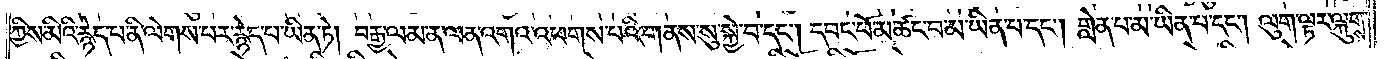ཀྱིས་མིའི་རྙེད་པ་ནི་ལེགས་པར་རྙེད་པ་ཡིན་ཏེ། བརྒྱ་ལམ་ན་ལན་འགའ་འཕགས་པའི་གནས་སུ་སྐྱེ་བ་དང༌། དབང་པོ་མ་ཚང་བ་མ་ཡིན་པ་དང༌། གླེན་པ་མ་ཡིན་པ་དང༌། ལུག་ལྟར་ལྐུགས་
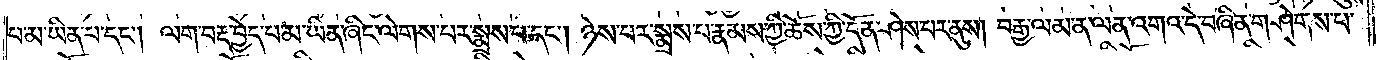པ་མ་ཡིན་པ་དང༌། ལག་བརྡ་བྱེད་པ་མ་ཡིན་ཞིང་ལེགས་པར་སྨྲས་པ་དང༌། ཉེས་པར་སྨྲས་པ་རྣམས་ཀྱི་ཆོས་ཀྱི་དོན་ཤེས་པར་ནུས། བརྒྱ་ལམ་ན་ལན་འགའ་དེ་བཞིན་གཤེགས་པ་
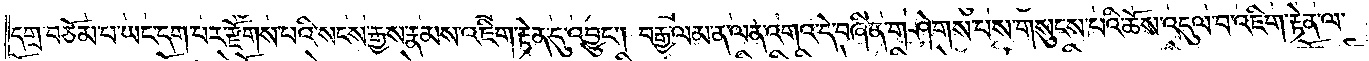དགྲ་བཅོམ་པ་ཡང་དག་པར་རྫོགས་པའི་སངས་རྒྱས་རྣམས་འཇིག་རྟེན་དུ་འབྱུང༌། བརྒྱ་ལམ་ན་ལན་འགའ་དེ་བཞིན་གཤེགས་པས་གསུངས་པའི་ཆོས་འདུལ་བ་འཇིག་རྟེན་ལ་
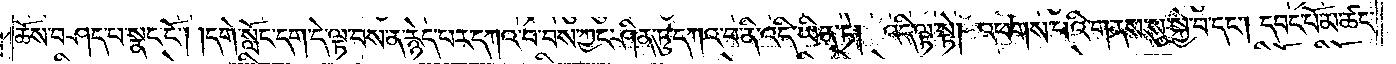ཆོས་བཤད་པ་སྣང་ངོ༌། །དགེ་སློང་དག་དེ་ལྟ་བས་ན་རྙེད་པར་དཀའ་བ་བས་ཀྱང་ཤིན་ཏུ་དཀའ་བ་ནི་འདི་ཡིན་ཏེ། འདི་ལྟ་སྟེ། འཕགས་པའི་གནས་སུ་སྐྱེ་བ་དང༌། དབང་པོ་མ་ཚང་
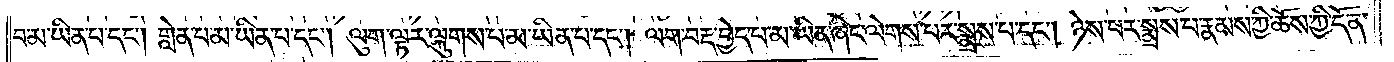བ་མ་ཡིན་པ་དང༌། གླེན་པ་མ་ཡིན་པ་དང༌། ལུག་ལྟར་ལྐུགས་པ་མ་ཡིན་པ་དང༌། ལག་བརྡ་བྱེད་པ་མ་ཡིན་ཞིང་ལེགས་པར་སྨྲས་པ་དང༌། ཉེས་པར་སྨྲས་པ་རྣམས་ཀྱི་ཆོས་ཀྱི་དོན་
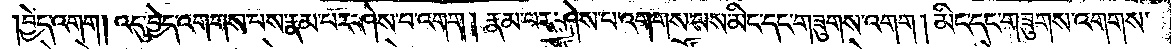བྱེད་འགག། འདུ་བྱེད་འགགས་པས་རྣམ་པར་ཤེས་པ་འགག །རྣམ་པར་ཤེས་པ་འགགས་པས་མིང་དང་གཟུགས་འགག །མིང་དང་གཟུགས་འགགས་
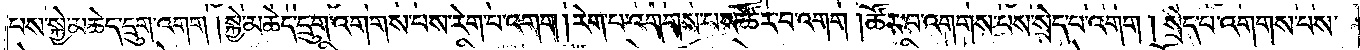པས་སྐྱེ་མཆེད་དྲུག་འགག །སྐྱེ་མཆེད་དྲུག་འགགས་པས་རེག་པ་འགག །རེག་པ་འགགས་པས་ཚོར་བ་འགག །ཚོར་བ་འགགས་པས་སྲེད་བ་འགག །སྲེད་པ་འགགས་པས་
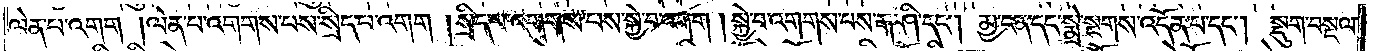ལེན་པ་འགག །ལེན་པ་འགགས་པས་སྲིད་པ་འགག །སྲིད་པ་འགགས་པས་སྐྱེ་བ་འགག །སྐྱེ་བ་འགགས་པས་རྒ་ཤི་དང༌། མྱ་ངན་དང་སྨྲེ་སྔགས་འདོན་པ་དང༌། སྡུག་བསྔལ་
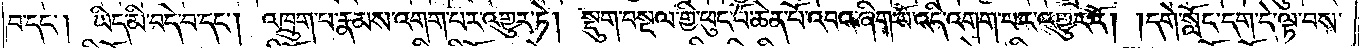བ་དང༌། ཡིད་མི་བདེ་བ་དང༌། འཁྲུག་པ་རྣམས་འགག་པར་འགྱུར་ཏེ། སྡུག་བསྔལ་གྱི་ཕུང་པོ་ཆེན་པོ་འབའ་ཞིག་པོ་འདི་འགག་པར་འགྱུར་རོ། །དགེ་སློང་དག་དེ་ལྟ་བས་
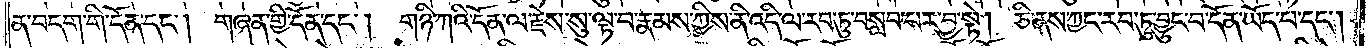ན་བདག་གི་དོན་དང༌། གཞན་གྱི་དོན་དང༌། གཉི་ཀའི་དོན་ལ་རྗེས་སུ་ལྟ་བ་རྣམས་ཀྱིས་ནི་འདི་ལ་རབ་ཏུ་བསླབ་པར་བྱ་སྟེ། ཅི་ནས་ཀྱང་རབ་ཏུ་བྱུང་བ་དོན་ཡོད་པ་དང༌།
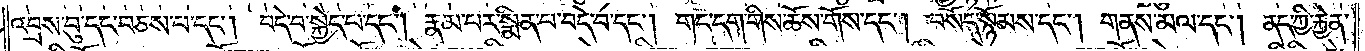འབྲས་བུ་དང་བཅས་པ་དང༌། བདེ་བ་སྐྱེད་པ་དང༌། རྣམ་པར་སྨིན་པ་བདེ་བ་དང༌། གང་དག་གིས་ཆོས་གོས་དང༌། བསོད་སྙོམས་དང༌། གནས་མལ་དང༌། ནད་ཀྱི་རྐྱེན་
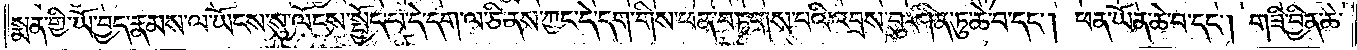སྨན་གྱི་ཡོ་བྱད་རྣམས་ལ་ཡོངས་སུ་ལོངས་སྤྱོད་པ་དེ་དག་ལ་ཅི་ནས་ཀྱང་དེ་དག་གིས་ཕན་བཏགས་པའི་འབྲས་བུ་ཤིན་ཏུ་ཆེ་བ་དང༌། ཕན་ཡོན་ཆེ་བ་དང༌། གཟི་བྱིན་ཆེ་
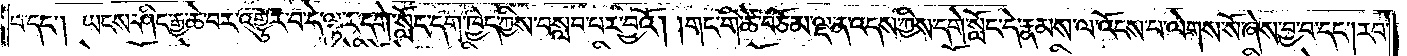བ་དང༌། ཡངས་ཤིང་རྒྱ་ཆེ་བར་འགྱུར་བ་དེ་ལྟར་དགེ་སློང་དག་ཁྱེད་ཀྱིས་བསླབ་པར་བྱའོ། །གང་གི་ཚེ་བཅོམ་ལྡན་འདས་ཀྱིས་དགེ་སློང་དེ་རྣམས་ལ་འོངས་པ་ལེགས་སོ་ཞེས་བྱ་བ་དང༌། རབ་
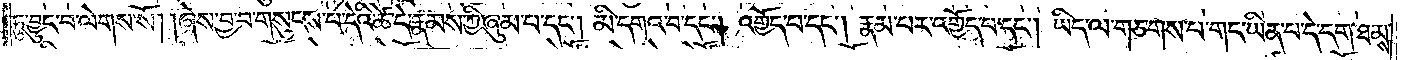ཏུ་བྱུང་བ་ལེགས་སོ། །ཞེས་བྱ་བ་གསུངས་པ་དེའི་ཚེ་དེ་རྣམས་ཀྱི་ཞུམ་པ་དང༌། མི་དགའ་བ་དང༌། འགྱོད་པ་དང༌། རྣམ་པར་འགྱོད་པ་དང༌། ཡིད་ལ་གཅགས་པ་གང་ཡིན་པ་དེ་དག་ཐམས་
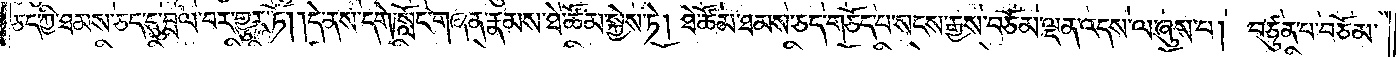ཅད་ཀྱི་ཐམས་ཅད་དུ་བྲལ་བར་གྱུར་ཏོ། །དེ་ནས་དགེ་སློང་གཞན་རྣམས་ཐེ་ཚོམ་སྐྱེས་ཏེ། ཐེ་ཚོམ་ཐམས་ཅད་གཅོད་པ་སངས་རྒྱས་བཅོམ་ལྡན་འདས་ལ་ཞུས་པ། བཙུན་པ་བཅོམ་
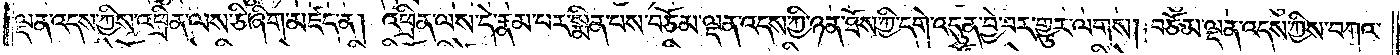ལྡན་འདས་ཀྱིས་འཕྲིན་ལས་ཅི་ཞིག་མཛད་ན། འཕྲིན་ལས་དེ་རྣམ་པར་སྨིན་པས་བཅོམ་ལྡན་འདས་ཀྱི་ཉན་ཐོས་ཀྱི་དགེ་འདུན་བྱེ་བར་གྱུར་ལགས། བཅོམ་ལྡན་འདས་ཀྱིས་བཀའ་
